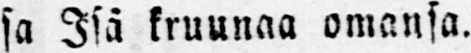sa Isä kruunaa omansa.
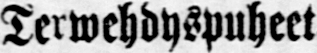Terwehdyspuheet.
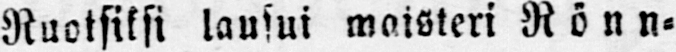Ruotsiksi lausui maisteri Rönn-
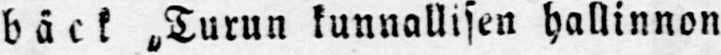bäck „Turun kunnallisen hallinnon
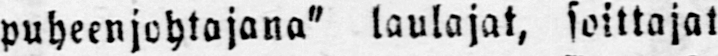puheenjohtajana" laulajat, soittajat
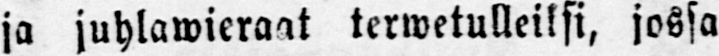ja juhlawieraat terwetulleiksi, jossa
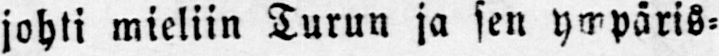johti mieliin Turun ja sen ympäris-
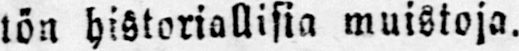tön historiallisia muistoja.
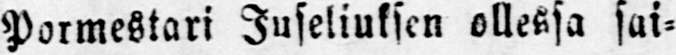Pormestari Juseliuksen ollessa sai-
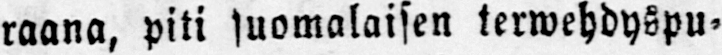raana, piti suomalaisen terwehdyspu-
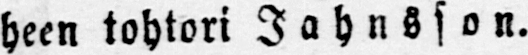heen tohtori Jahnsson.
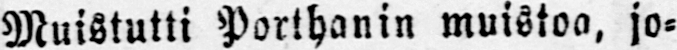Muistutti Porthanin muistoa, jo-
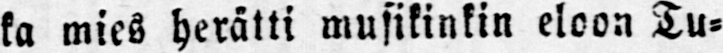ka mies herätti musikinkin eloon Tu-
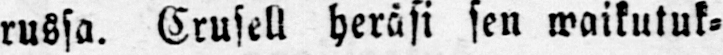russa. Crusell heräsi sen waikutuk-
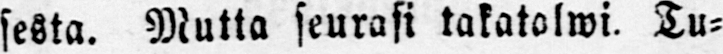sesta. Mutta seurasi takatalwi. Tu-
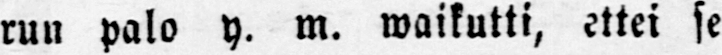run palo y. m. waikutti, ettei se
